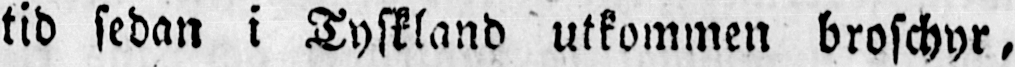tid sedan i Tyskland utkommen broschyr,
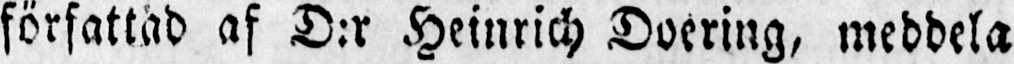författad af D:r Heinrich Doering, meddela
